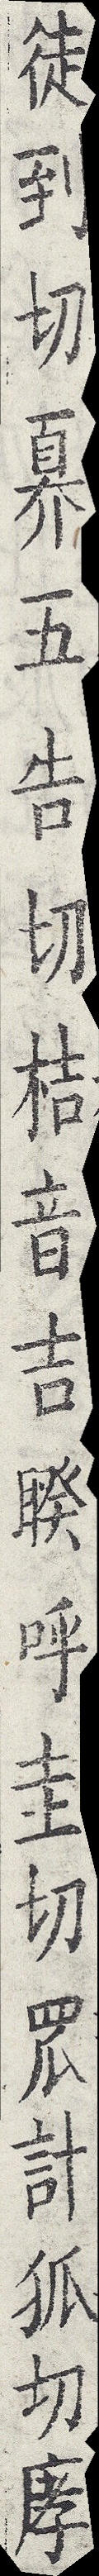徒到切奡五告切桔音吉睽呼圭切罛計狐切庨
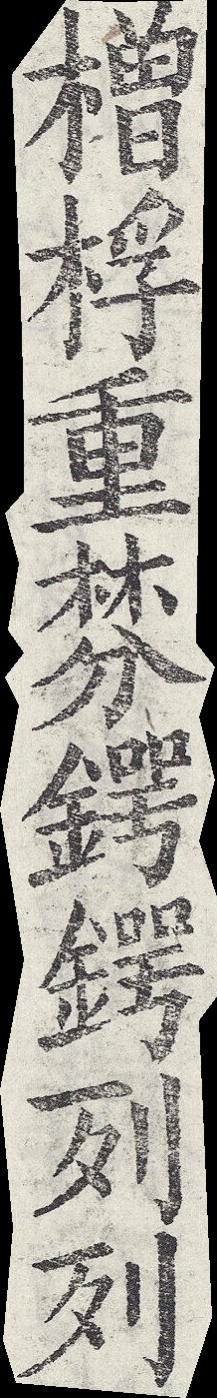橧桴重棼鍔鍔列列
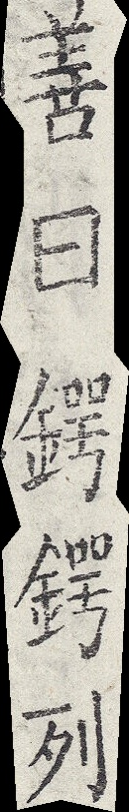善曰鍔鍔列
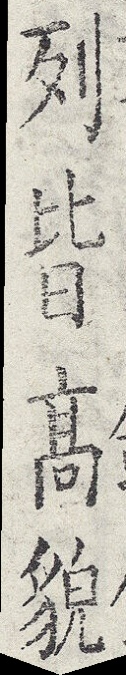列皆高貌
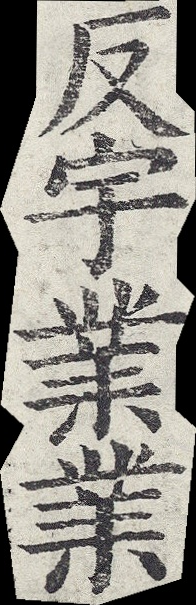反宇業業
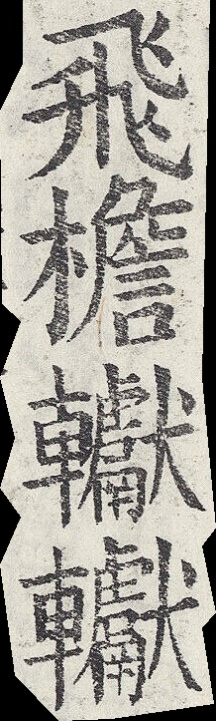飛檐䡾䡾
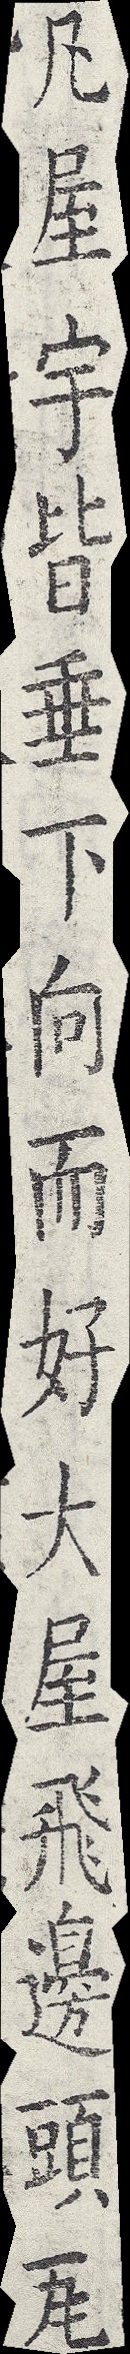凡屋宇皆垂下向而好大屋飛邊頭瓦
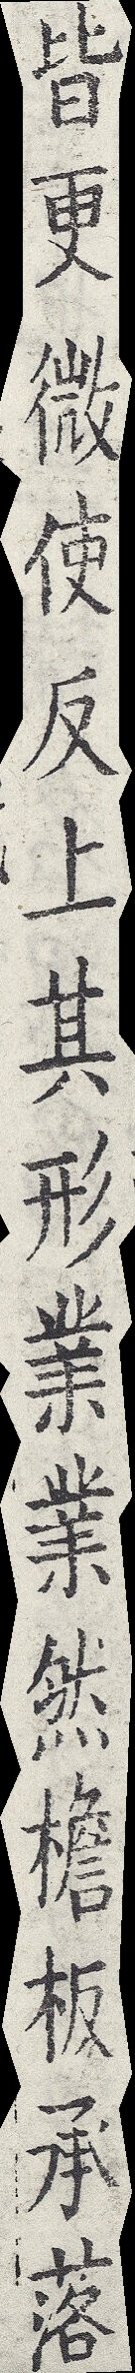皆更微使反上其形業業然檐板承落
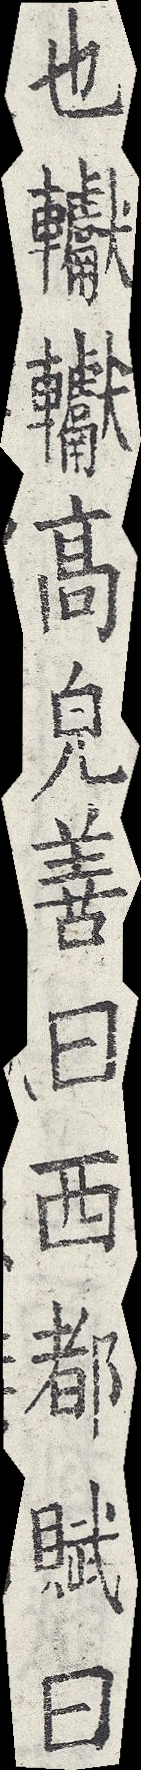也䡾䡾高貌善曰西都賦曰
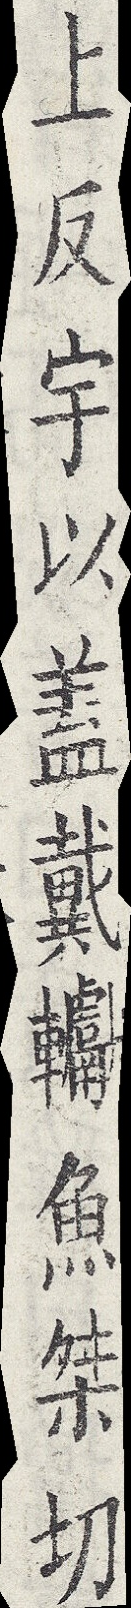上反宇以蓋戴䡾魚桀切
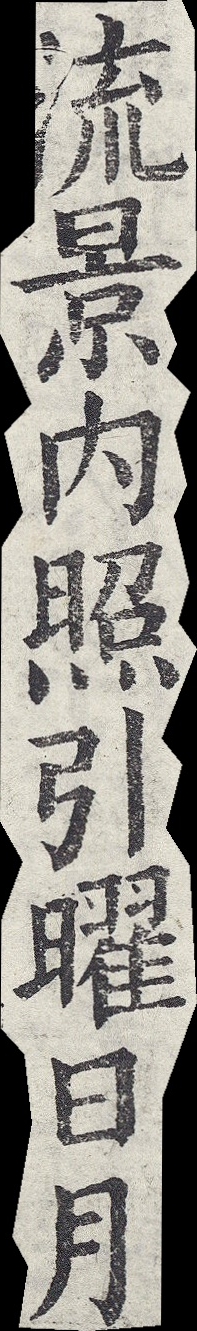流景內照引曜日月
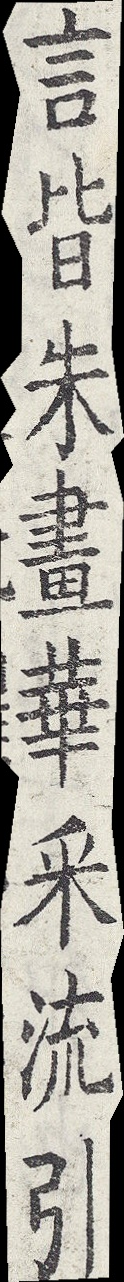言皆朱畫華采流引
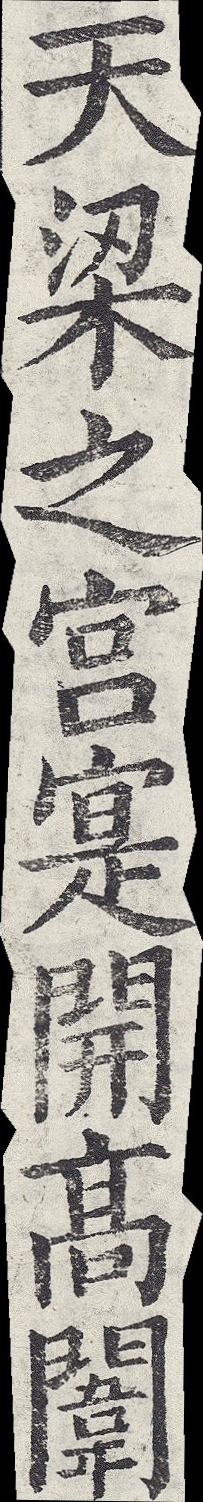天梁之宮寔開高闈
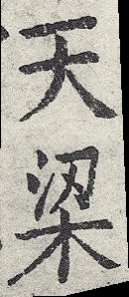天梁
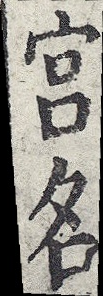宮名
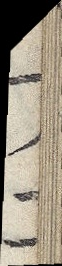文二
